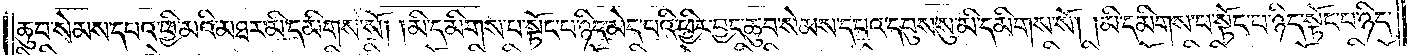ཆུབ་སེམས་དཔའ་ཕྱི་མའི་མཐར་མི་དམིགས་སོ། །མི་དམིགས་པ་སྟོང་པ་ཉིད་མེད་པའི་ཕྱིར་བྱང་ཆུབ་སེམས་དཔའ་དབུས་སུ་མི་དམིགས་སོ། །མི་དམིགས་པ་སྟོང་པ་ཉིད་སྟོང་པ་ཉིད་
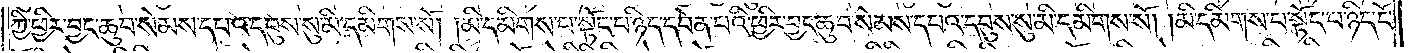ཀྱི་ཕྱིར་བྱང་ཆུབ་སེམས་དཔའ་དབུས་སུ་མི་དམིགས་སོ། །མི་དམིགས་པ་སྟོང་པ་ཉིད་དབེན་པའི་ཕྱིར་བྱང་ཆུབ་སེམས་དཔའ་དབུས་སུ་མི་དམིགས་སོ། །མི་དམིགས་པ་སྟོང་པ་ཉིད་ངོ་
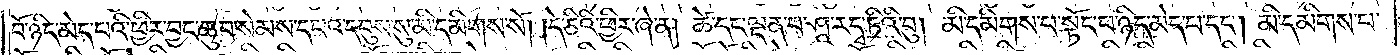བོ་ཉིད་མེད་པའི་ཕྱིར་བྱང་ཆུབ་སེམས་དཔའ་དབུས་སུ་མི་དམིགས་སོ། །དེ་ཅིའི་ཕྱིར་ཞེ་ན། ཚེ་དང་ལྡན་པ་ཤཱ་རདྭ་ཏིའི་བུ། མི་དམིགས་པ་སྟོང་པ་ཉིད་མེད་པ་དང༌། མི་དམིགས་པ་
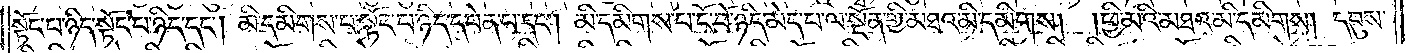སྟོང་པ་ཉིད་སྟོང་པ་ཉིད་དང༌། མི་དམིགས་པ་སྟོང་པ་ཉིད་དབེན་པ་དང༌། མི་དམིགས་པ་སྟོང་པ་ཉིད་ངོ་བོ་ཉིད་མེད་པ་ལ་སྔོན་གྱི་མཐའ་མི་དམིགས། ཕྱི་མའི་མཐའ་མི་དམིགས། དབུས་
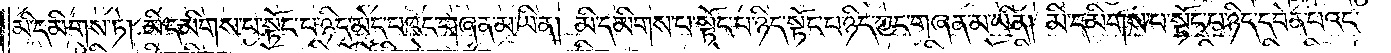མི་དམིགས་ཏེ། མི་དམིགས་པ་སྟོང་པ་ཉིད་མེད་པའང་གཞན་མ་ཡིན། མི་དམིགས་པ་སྟོང་པ་ཉིད་སྟོང་པ་ཉིད་ཀྱང་གཞན་མ་ཡིན། མི་དམིགས་པ་སྟོང་པ་ཉིད་དབེན་པའང་
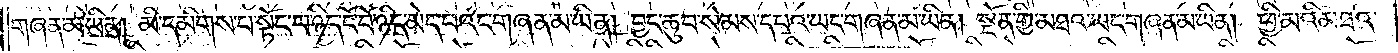གཞན་མ་ཡིན། མི་དམིགས་པ་སྟོང་པ་ཉིད་ངོ་བོ་ཉིད་མེད་པའང་གཞན་མ་ཡིན། བྱང་ཆུབ་སེམས་དཔའ་ཡང་གཞན་མ་ཡིན། སྔོན་གྱི་མཐའ་ཡང་གཞན་མ་ཡིན། ཕྱི་མའི་མཐའ་
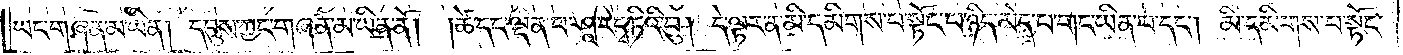ཡང་གཞན་མ་ཡིན། དབུས་ཀྱང་གཞན་མ་ཡིན་ནོ། །ཚེ་དང་ལྡན་པ་ཤཱ་རདྭ་ཏིའི་བུ། དེ་ལྟར་ན་མི་དམིགས་པ་སྟོང་པ་ཉིད་མེད་པ་གང་ཡིན་པ་དང༌། མི་དམིགས་པ་སྟོང་
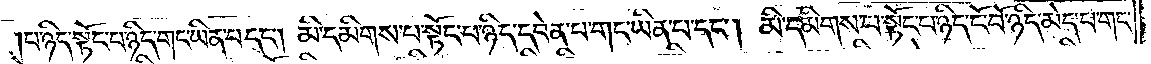པ་ཉིད་སྟོང་པ་ཉིད་གང་ཡིན་པ་དང༌། མི་དམིགས་པ་སྟོང་པ་ཉིད་དབེན་པ་གང་ཡིན་པ་དང༌། མི་དམིགས་པ་སྟོང་པ་ཉིད་ངོ་བོ་ཉིད་མེད་པ་གང་
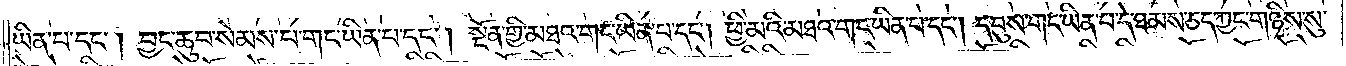ཡིན་པ་དང༌། བྱང་ཆུབ་སེམས་དཔའ་གང་ཡིན་པ་དང༌། སྔོན་གྱི་མཐའ་གང་ཡིན་པ་དང༌། ཕྱི་མའི་མཐའ་གང་ཡིན་པ་དང༌། དབུས་གང་ཡིན་པ་དེ་ཐམས་ཅད་ཀྱང་གཉིས་སུ་
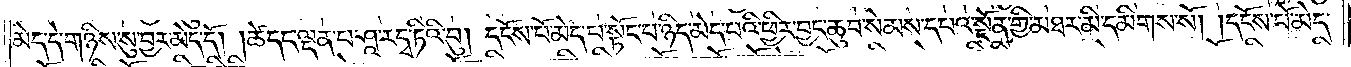མེད་དེ་གཉིས་སུ་བྱར་མེད་དོ། །ཚེ་དང་ལྡན་པ་ཤཱ་རདྭ་ཏིའི་བུ། དངོས་པོ་མེད་པ་སྟོང་པ་ཉིད་མེད་པའི་ཕྱིར་བྱང་ཆུབ་སེམས་དཔའ་སྔོན་གྱི་མཐར་མི་དམིགས་སོ། །དངོས་པོ་མེད་
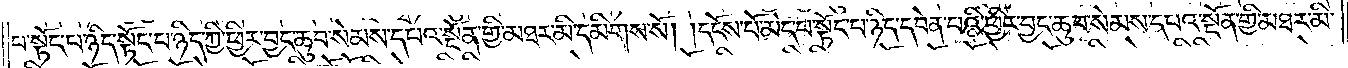པ་སྟོང་པ་ཉིད་སྟོང་པ་ཉིད་ཀྱི་ཕྱིར་བྱང་ཆུབ་སེམས་དཔའ་སྔོན་གྱི་མཐར་མི་དམིགས་སོ། །དངོས་པོ་མེད་པ་སྟོང་པ་ཉིད་དབེན་པའི་ཕྱིར་བྱང་ཆུབ་སེམས་དཔའ་སྔོན་གྱི་མཐར་མི་
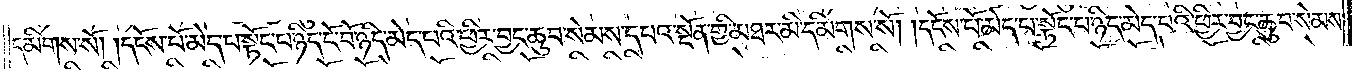དམིགས་སོ། །དངོས་པོ་མེད་པ་སྟོང་པ་ཉིད་ངོ་བོ་ཉིད་མེད་པའི་ཕྱིར་བྱང་ཆུབ་སེམས་དཔའ་སྔོན་གྱི་མཐར་མི་དམིགས་སོ། །དངོས་པོ་མེད་པ་སྟོང་པ་ཉིད་མེད་པའི་ཕྱིར་བྱང་ཆུབ་སེམས་
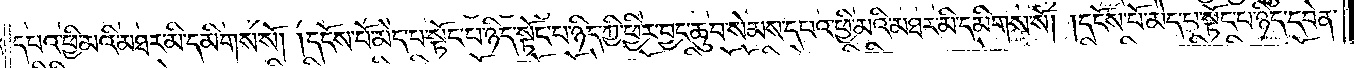དཔའ་ཕྱི་མའི་མཐར་མི་དམིགས་སོ། །དངོས་པོ་མེད་པ་སྟོང་པ་ཉིད་སྟོང་པ་ཉིད་ཀྱི་ཕྱིར་བྱང་ཆུབ་སེམས་དཔའ་ཕྱི་མའི་མཐར་མི་དམིགས་སོ། །དངོས་པོ་མེད་པ་སྟོང་པ་ཉིད་དབེན་
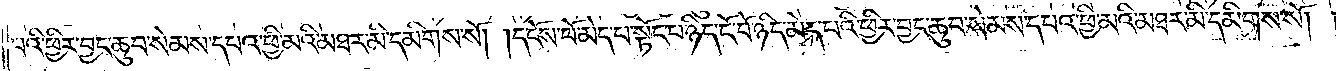པའི་ཕྱིར་བྱང་ཆུབ་སེམས་དཔའ་ཕྱི་མའི་མཐར་མི་དམིགས་སོ། །དངོས་པོ་མེད་པ་སྟོང་པ་ཉིད་ངོ་བོ་ཉིད་མེད་པའི་ཕྱིར་བྱང་ཆུབ་སེམས་དཔའ་ཕྱི་མའི་མཐར་མི་དམིགས་སོ། །
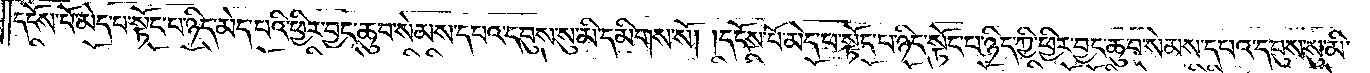དངོས་པོ་མེད་པ་སྟོང་པ་ཉིད་མེད་པའི་ཕྱིར་བྱང་ཆུབ་སེམས་དཔའ་དབུས་སུ་མི་དམིགས་སོ། །དངོས་པོ་མེད་པ་སྟོང་པ་ཉིད་སྟོང་པ་ཉིད་ཀྱི་ཕྱིར་བྱང་ཆུབ་སེམས་དཔའ་དབུས་སུ་མི་
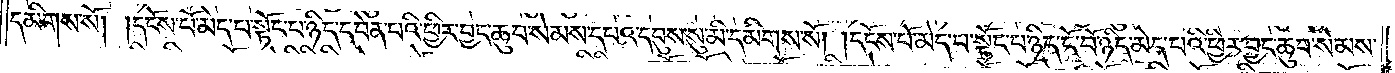དམིགས་སོ། །དངོས་པོ་མེད་པ་སྟོང་པ་ཉིད་དབེན་པའི་ཕྱིར་བྱང་ཆུབ་སེམས་དཔའ་དབུས་སུ་མི་དམིགས་སོ། །དངོས་པོ་མེད་པ་སྟོང་པ་ཉིད་ངོ་བོ་ཉིད་མེད་པའི་ཕྱིར་བྱང་ཆུབ་སེམས་
